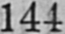144
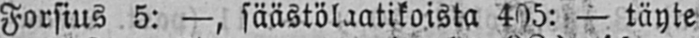Forsius 5: —, säästölaatikoista 405: — täyte
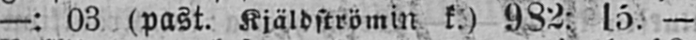—: 03 (past. Kjäldströmin k.) 982: 15. —
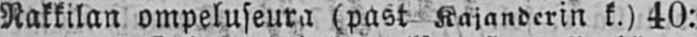Nakkilan ompeluseura (past Kajanderin k.) 40:
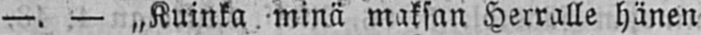—. — „Kuinka minä maksan Herralle hänen
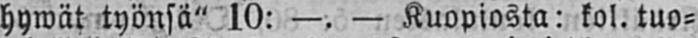hywät työnsä" 10: —. — Kuopiosta: kol. tuo-
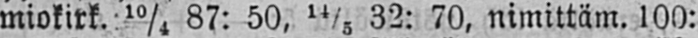miokirk. 10/4 87: 50, 14/5 32: 70, nimittäm. 100:
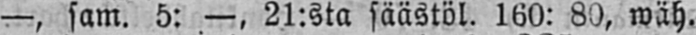—, sam. 5: —, 21:sta säästöl. 160: 80, wäh.
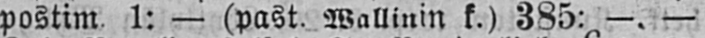postim. 1: — (past. Wallinin k.) 385: —. —
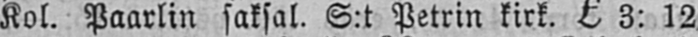Kol. Paarlin saksal. S:t Petrin kirk. £ 3: 12
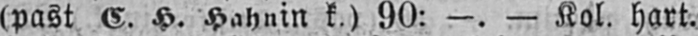(past E. H. Hahnin k.) 90: —. — Kol. hart.
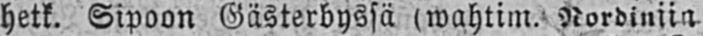hetk. Sipoon Gästerbyssä (wahtim. Nordiniin
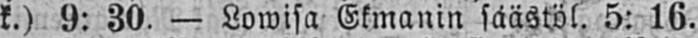k.) 9: 30. — Lowisa Ekmanin säästösl. 5: 16.
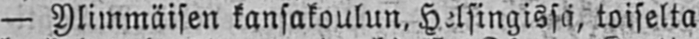— Ylimmäisen kansakoulun, Helsingissä, toiselta
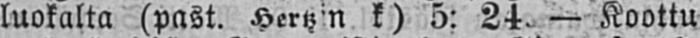luokalta (past. Hertzin k) 5: 24. — Koottu
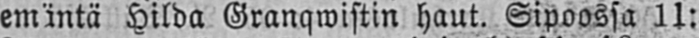emäntä Hilda Granqwistin haut. Sipoossa 11:
